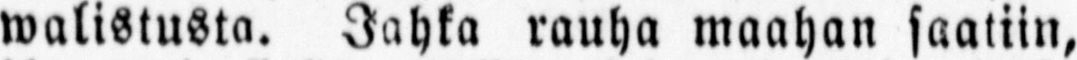walistusta. Jahka rauha maahan saatiin,
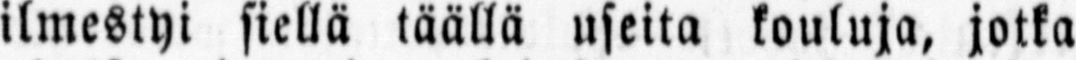ilmestyi siellä täällä useita kouluja, jotka
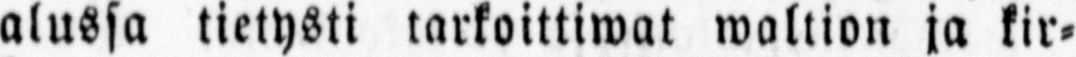alussa tietysti tarkoittiwat waltion ja kir-
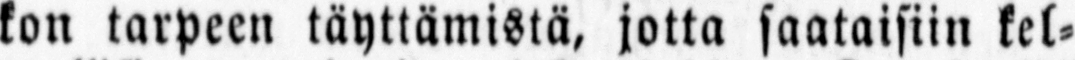kon tarpeen täyttämistä, jotta saataisiin kel-
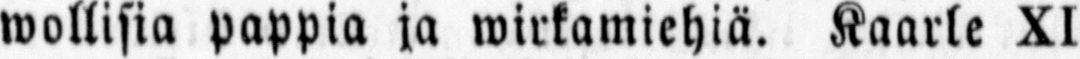wollisia pappia ja wirkamiehiä. Kaarle XI
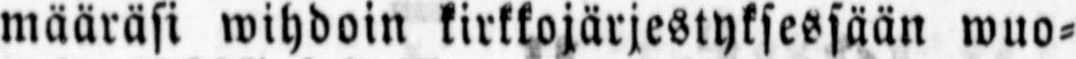määräsi wihdoin kirkkojärjestyksessään wuo-
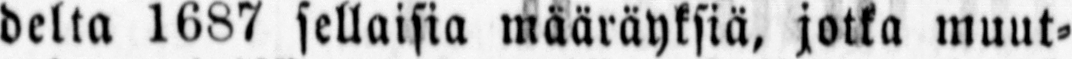delta 1687 sellaisia määräyksiä, jotka muut-
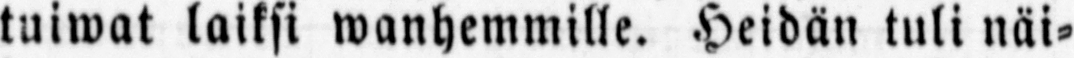tuiwat laiksi wanhemmille. Heidän tuli näi-
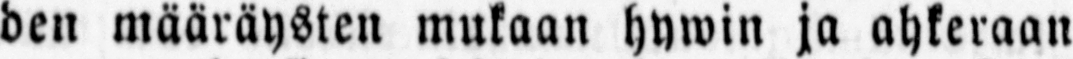den määräysten mukaan hywin ja ahkeraan
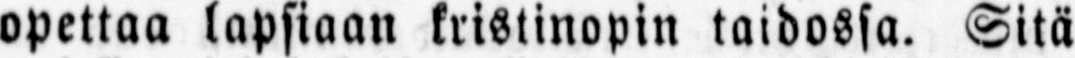opettaa lapsiaan kristinopin taidossa. Sitä
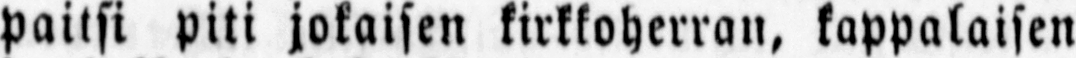paitsi piti jokaisen kirkkoherran, kappalaisen
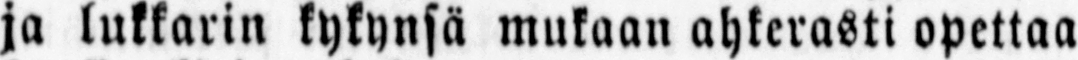ja lukkarin kykynsä mukaan ahkerasti opettaa
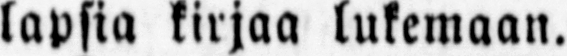lapsia kirjaa lukemaan.
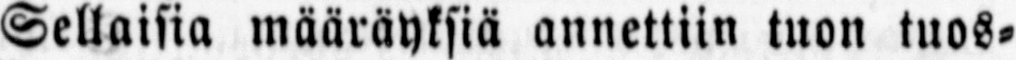Sellaisia määräyksiä annettiin tuon tuos-
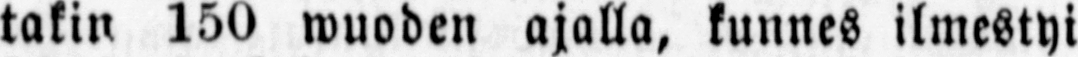takin 150 wuoden ajalla, kunnes ilmestyi
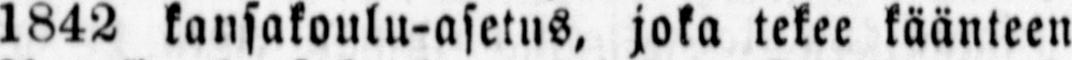1842 kansakoulu-asetus, joka tekee käänteen
